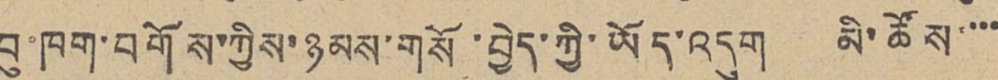བུ་ཁག་བགོས་ཀྱིས་ཉམས་གསོ་བྱེད་ཀྱི་ཡོད་འདུག མི་ཚོས་་་་
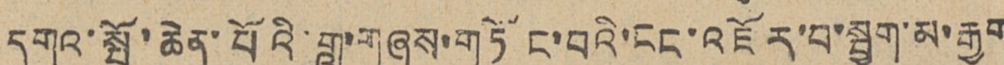དགའ་སྤྲོ་ཆེན་པོའི་གླུ་གཞས་གཏོང་བའི་ངང་འཇོར་བ་སྦྱག་མ་རྒྱག
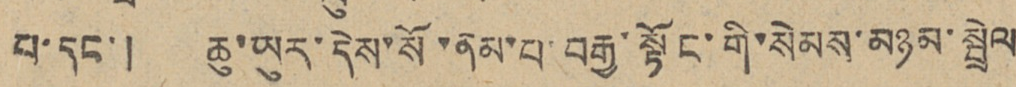པ་དང་། ཆུ་ཡུར་དེས་སོ་ནམ་པ་བརྒྱ་སྟོང་གི་སེམས་མཉམ་སྦྲེལ
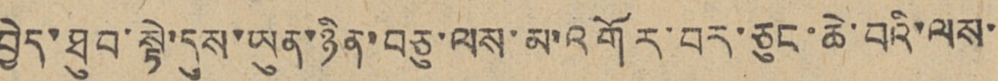བྱེད་ཐུབ་སྟེ་དུས་ཡུན་ཉིན་བཅུ་ལས་མ་འགོར་བར་ཅུང་ཆེ་བའི་ལས་
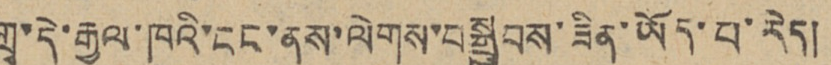གྲྭ་དེ་རྒྱལ་ཁའི་ངང་ནས་ལེགས་བསྒྲུབས་ཟིན་ཡོད་པ་རེད།
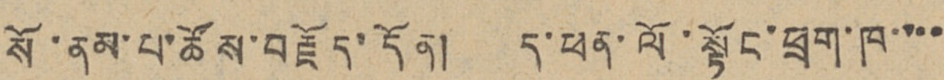སོ་ནམ་པ་ཚོས་བརྗོད་དོན། ད་ཕན་ལོ་སྟོང་ཕྲག་ཁ་་་་
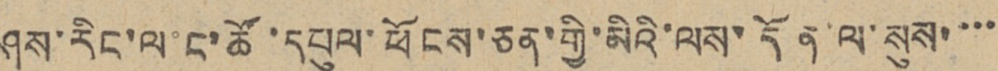ཤས་རིང་ལ་ང་ཚོ་དཔུལ་ཕོངས་ཅན་གྱི་མིའི་ལས་དོན་ལ་སུས་་་་
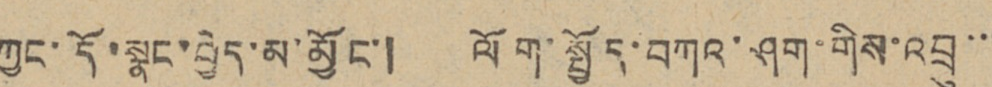ཀྱང་དོ་སྣང་བྱེད་མ་མྱོང་། ལོག་སྤྱོད་བཀའ་ཤག་གིས་འབྲུ་་་
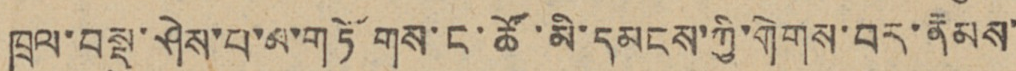ཁྲལ་བསྡུ་ཤེས་པ་མ་གཏོགས་ང་ཚོ་མི་དམངས་ཀྱི་གེགས་བར་རྣམས་
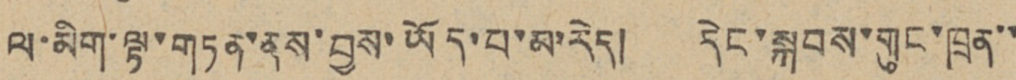ལ་མིག་ལྟ་གཏན་ནས་བྱས་ཡོད་པ་མ་རེད། དེང་སྐབས་གུང་ཁྲན་་
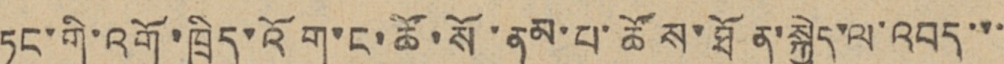ཏང་གི་འགོ་ཁྲིད་འོག་ང་ཚོ་སོ་ནམ་པ་ཚོས་ཐོན་སྐྱེད་ལ་འབད་་་
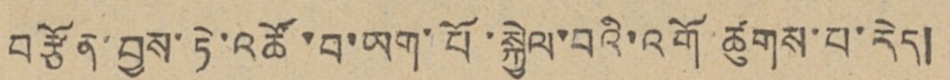བརྩོན་བྱས་ཏེ་འཚོ་བ་ཡག་པོ་སྐྱེལ་བའི་འགོ ཚུགས་པ་རེད།
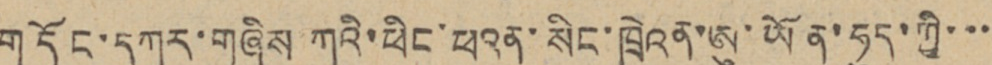གདོང་དཀར་གཞིས་ཀའི་ཕིང་ཕའན་སིང་ཁྲེའན་ཨུ་ཡོན་ཧུད་ཀྱི་་་་
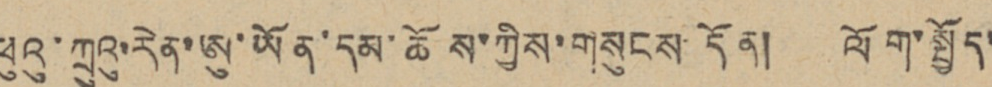ཕུའུ་ཀྲུའུ་རེན་ཨུ་ཡོན་དམ་ཆོས་ཀྱིས་གསུངས་དོན། ལོག་སྤྱོད་
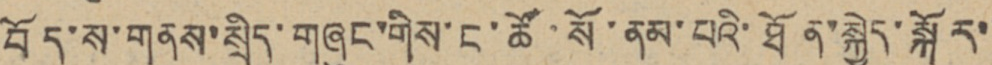བོད་ས་གནས་སྲིད་གཞུང་གིས་ང་ཚོ་སོ་ནམ་པའི་ཐོན་སྐྱེད་སྐོར་་
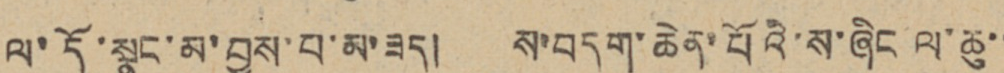ལ་དོ་སྣང་མ་བྱས་པ་མ་ཟད། ས་བདག་ཆེན་པོའི་ས་ཞིང ལ་ཆུ་་
